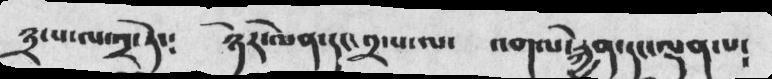༣་པ་ལ་༢་ཏེ་༴   ཉེར་ལེན་དང་༢་པ་ལ་  འགལ་རྐྱེན་དང་ལྡན་པ༴
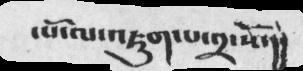་སོ་ལ་འཇུག་པ་༢་སོ་།།
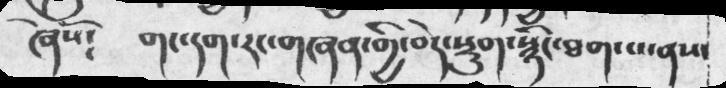ཞེསོ༴   གང་དག་རང་གཞན་གྱི་བདེ་སྡུག་སྙིང་ཐག་པ་ནས་
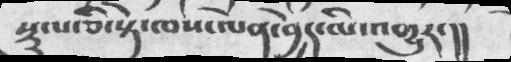སྡུ་པ་ཅི་སྟེ་ཁས་ལེན་བྱེད་མི་འགྱུར་།།
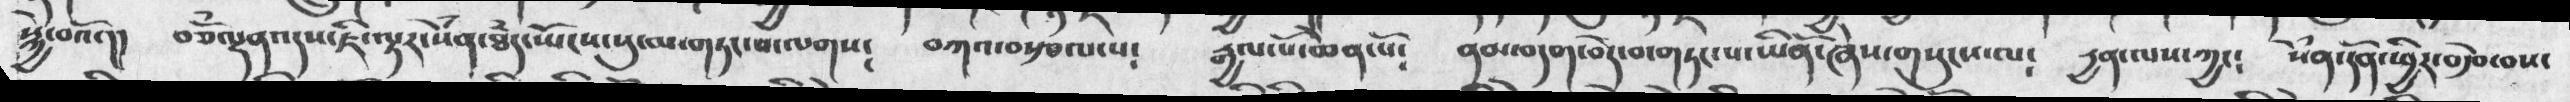སྐྱེ་བའོ་།།  བཅོཾལྡནའདས་ཇི་ལྟར་སེཾན་ཐཾད་ཡོངས་སུ་མ་གཏང་བ་ལགས༴   བཀའ་བརྩལ་པ༴  རྒྱལ་པོ་ཆེན་པོ༴  ནམ་བདག་བདེ་བ་གཏང་པ་ཡིནོ་ཞེས་གསུངས་ལ༴ དྱན་ལས་ཀྱང༴ སེཾན་དོན་ཕྱིར་བརྩེ་བས་
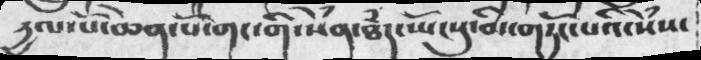དྱལ་པོ་ཆེན་པོ་གང་གི་སེཾན་ཐཾད་ཡོངསུ་མི་གཏོང་པའི་སེཾས་
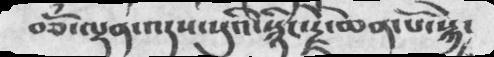བཅོཾ་ལྡན་འདས་སུའི་སྙིང་རྗེ་ཆེན་པོ་སྐྱེ་
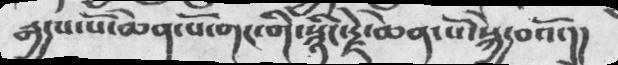རྒྱལ་པོ་ཆེན་པོ་གང་གི་སྙིང་རྗེ་ཆེན་པོ་སྐྱེ་བའོ་།།
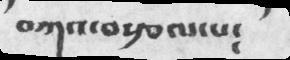བཀའ་བརྩལ་པ༴
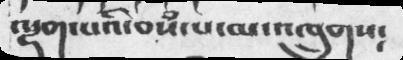ལྡན་པའི་བསཾ་པ་མ་འཁྲུགས༴
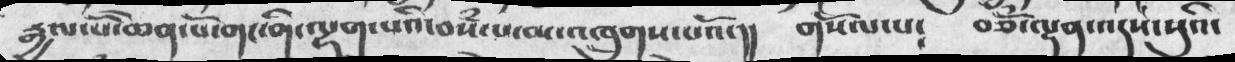རྒྱལ་པོ་ཆེན་པོ་གང་གི་ལྡན་་པའི་བསཾ་པ་མ་འཁྲུགས་པའོ་།།   གསོལ་པ༴  བཅོཾ་ལྡན་འདས་སུའི་
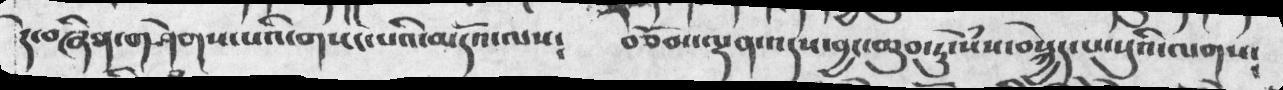དེ་བཞེན་གཤེགས་པའི་གསང་པའིམདོ་ལས༴   བཅོམ་ལྡན་འདས་བྱང་ཆུབ་ཏུ་སེཾས་བསྐྱེད་པ་སུའི་ལགས༴
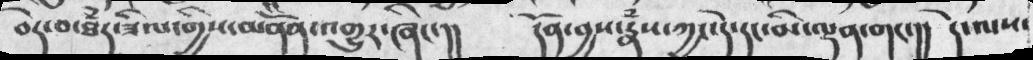བདེ་བ་ཐཾད་ཟིལ་གྱིས་མནོན་འགྱུར་ཞིང་།།   དོན་བྱད་རྣཾས་ཀྱང་དེ་དང་མི་ལྡན་གང་།།  དེ་ལས་
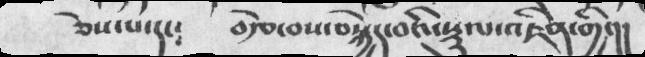ཅེས་པ་དང༴   བརྩེ་བས་བསྐྱེད་བའི་སྡུལ་འཇིན་གྱི་།།
